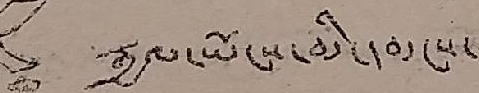རྒྱལ་ཡོངས་མི་དམངས་
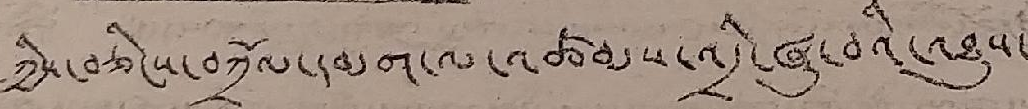ཀྱིས་བཅིངས་བཀྲོལ་དམག་ལ་འཚམ་འདྲི་ཞུ་བའི་འཐུས་
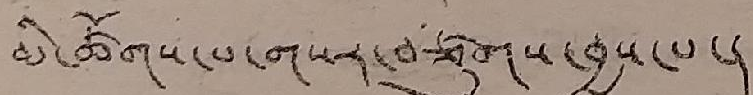མི་ཚོགས་པ་གསར་བཙུགས་བྱས་པ་།
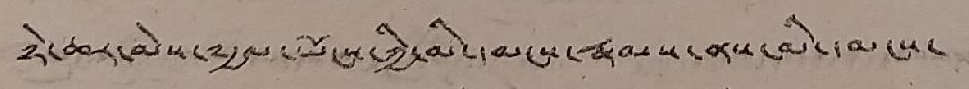ཉེ་ཆར་མེས་༸རྒྱལ་ཡོངས་ཀྱི་མི་དམངས་རྣམས་ནས་མི་དམངས་
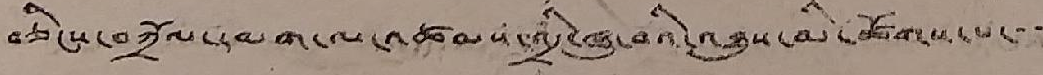བཅིངས་བཀྲོལ་དམག་ལ་འཚམ་འདྲི་ཞུ་བའི་འཐུས་མི་ཚོགས་པ་་་
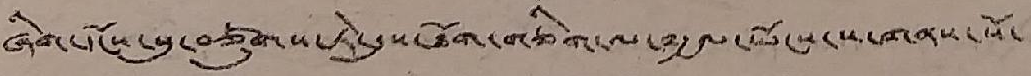ཞིག་དངོས་སུ་བཙུགས་ཏེ་དུས་ཐོག་གཅིག་ལ་༸རྒྱལ་ཡོངས་ས་གནས་སོ་
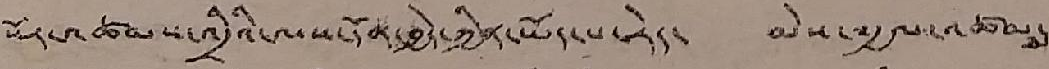སོར་འཚམས་འདྲིའི་ལས་དོན་བྱེད་ཀྱིན་ཡོད་པ་རེད་ མེས་༸རྒྱལ་འཚམས་
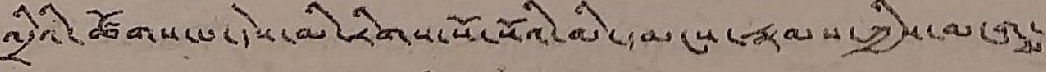འདྲིའི་ཚོགས་པ་དེས་མི་རིགས་སོ་སོའི་མི་དམངས་རྣམས་ཀྱིས་མངགས་
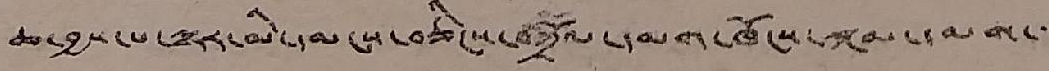ཆ་བྱས་པ་ལྟར་མི་དམངས་བཅིངས་བཀྲོལ་དམག་ཁོངས་སྐམ་དམག་་་
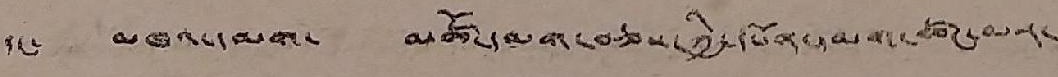དང་ མཁའ་དམག་ མཚོ་དམག་བཅས་ཀྱི་དཔོན་དམག་ཚང་མར་
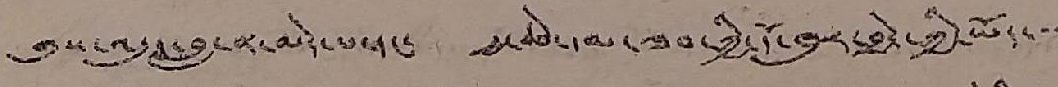གུས་འདུད་བླ་ན་མེད་པ་དང་ རྒྱ་ཆེ་མ་ཟབ་ཀྱི་དོ་ཁུར་བྱེད་ཀྱི་ཡོད་་་
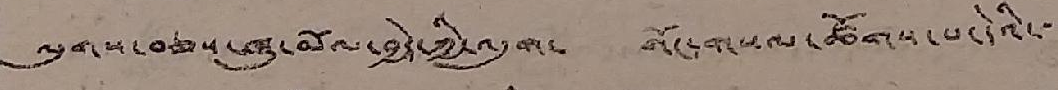ལུགས་བཅས་ཤུ་མོལ་བཡེད་ཀྱི་འདུག་ གོང་གསལ་ཚོགས་པ་དེའི་་་
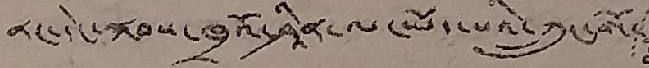ནང་དེང་སྐབས་ཁྲའོ་ཤྰིན་ལ་ཡོད་པའི་ཀྲུང་གོ་
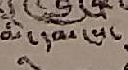མི་དམངས་
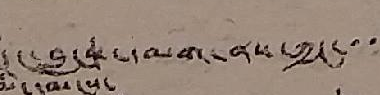དང་བླང་དམག་ནས་ཀྱང་་་་
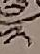༢
